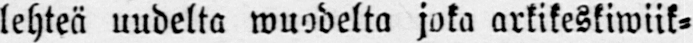lehteä uudelta wuodelta joka arkikeskiwiik-
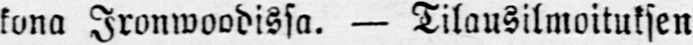kona Ironwoodissa. — Tilausilmoituksen
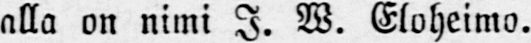alla on nimi I. W. Eloheimo.
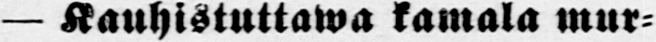— Kauhistuttawa kamala mur-
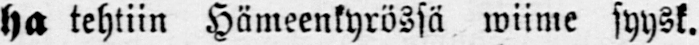ha tehtiin Hämeenkyrössä wiime syysk.
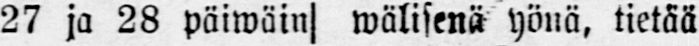27 ja 28 päiwäin wälisenä yönä, tietää
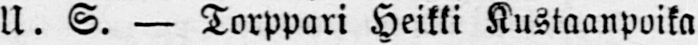U. S. — Torppari Heikki Kustaanpoika
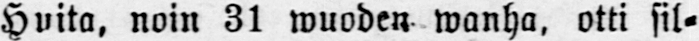Huita, noin 31 wuoden wanha, otti sil-
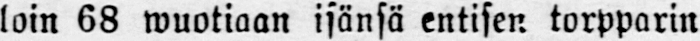loin 68 wuotiaan isänsä entisen torpparin
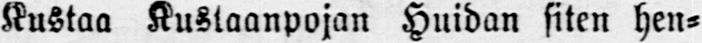Kustaa Kustaanpojan Huidan siten hen-
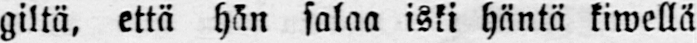giltä, että hän salaa iski häntä kiwellä
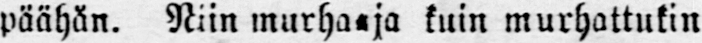päähän. Niin murha ja kuin murhattukin
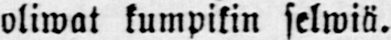oliwat kumpikin selwiä.
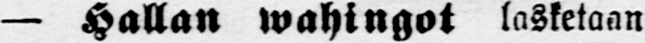— Hallan wahingot lasketaan
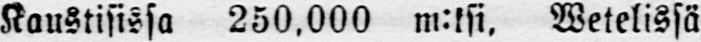Kaustisissa 250,000 m:ksi. Wetelissä
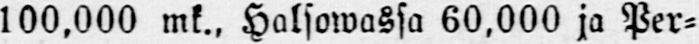100,000 mk., Halsowassa 60,000 ja Per-
